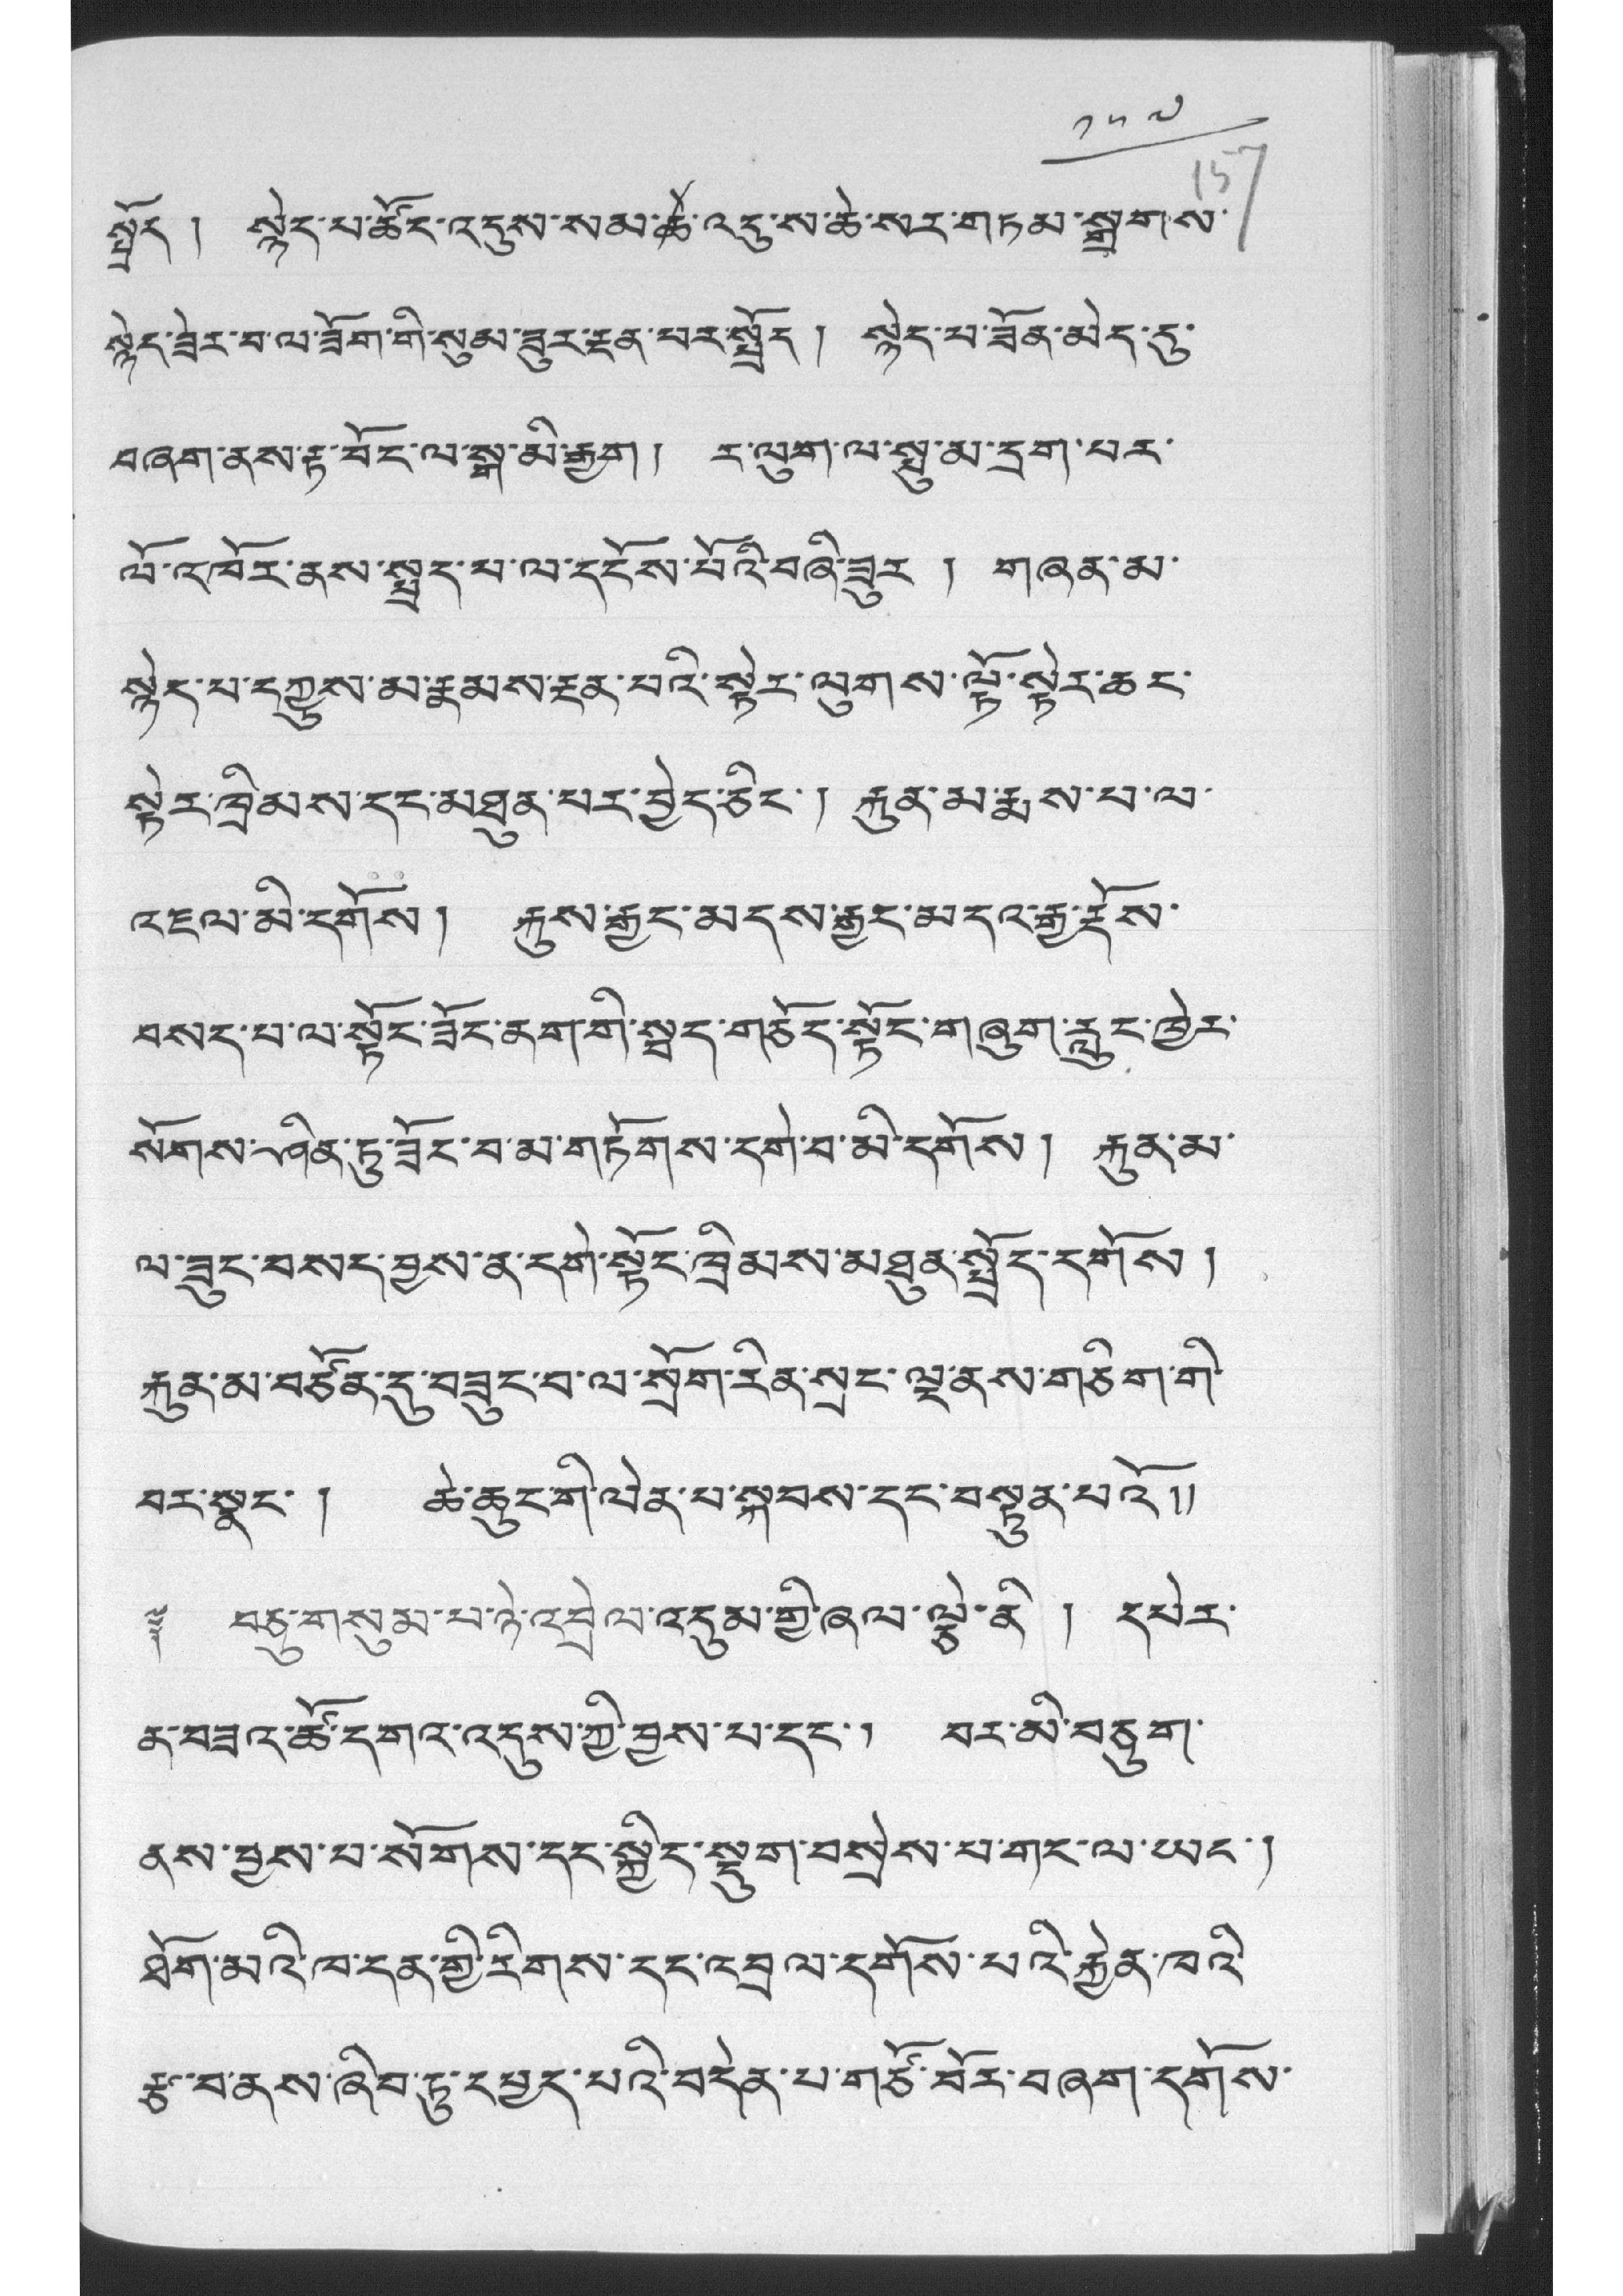༡༥༧
སྤྱོད ། སྙེད་པ་ཚོང་འདུས་སམ་ཚེ་འདུ་ས་ཆེ་སར་གཏམ་སྒྲགས་
སྙེད་ཟེར་བ་ལ་ཟོག་གི་སུམ་ཟུར་རྔན་པར་སྤྲོད ། སྙེད་པ་ཟོན་མེད་དུ་
བཞག་ནས་རྟ་བོང་ལ་སྒ་མི་རྒྱག ། ར་ལུག་ལ་སྤུ་མ་དྲག་པར་
ལོ་འཁོར་ནས་སྤྲད་པ་ལ་དངོས་པོའི་བཞི་ཟུར ། གཞན་མ་
སྐྱེད་པ་དཀྱུས་མ་རྣམས་རྔན་པའི་སྟེར་ལུགས་ལྟོ་སྟེར་ཆང་
སྟེར་ཁྲིམས་དང་མཐུན་པར་བྱེད་ཅིང་། རྐུན་མ་རྨས་པ་ལ་
འཇལ་མི་དགོས། རྐུས་རྒྱང་མདས་རྒྱང་མདའ་རྒྱ་རྡོས་
བསད་པ་ལ་སྟོང་ཟོང་ནག་གི་སྦད་གཅོད་སྟོང་གཞུག་རླུང་ཁྱེར་
སོགས་ཤིན་ཏུ་ཟོང་བ་མ་གཏོགས་དགེ་བ་མི་དགོས། རྐུན་མ་
ལ་ཟུང་བསད་བྱས་ན་དགེ་སྟོང་ཁྲིམས་མཐུན་སྤྲོད་དགོས །
རྐུན་མ་བཙོན་དུ་བཟུང་བ་ལ་སྲོག་རིན་སྲང་ལྔ་ནས་གཅིག་གི་
བར་སྣང་ ། ཆེ་ཆུང་གི་ལེན་པ་སྐབས་དང་བསྟུན་པའོ།།
༈ བཅུ་གསུམ་པ་ཉེ་འབྲེལ་འདུམ་གྱི་ཞལ་ལྕེ་ནི ། དཔེར་
ན་བཟའ་ཚོ་དགའ་འདུས་ཀྱི་བྱས་པ་དང་། བར་མི་བཅུག་
ནས་བྱས་པ་སོགས་དང་སྐྱིད་སྡུག་བསྲེས་པ་གང་ལ་ཡང་།
ཐོག་མའི་ཁ་དན་གྱི་རིགས་དང་འབྲེལ་དགོས་པའི་རྐྱེན་ཁའ་
རྩ་བ་ནས་ཞིབ་ཏུ་དཔྱད་པའི་བདེན་པ་གཙོ་བོར་བཞག་དགོས་
